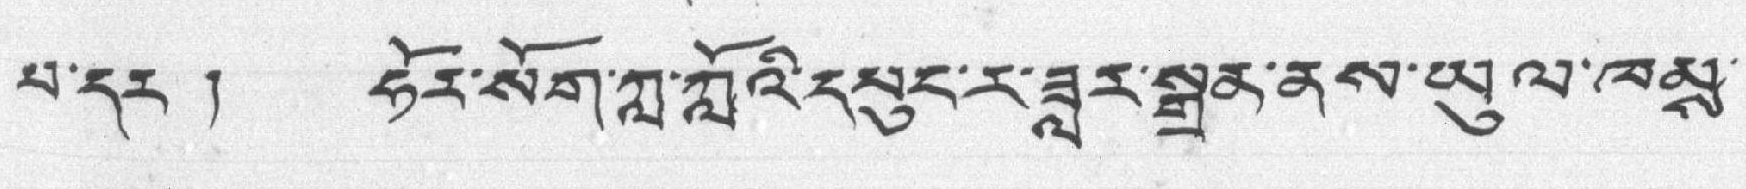པ་དར ། ཧོར་སོག་ཀླ་ཀློའི་དཔུང་ར་ཟླར་སྒྲན་ནས་ཡུལ་ལམས་
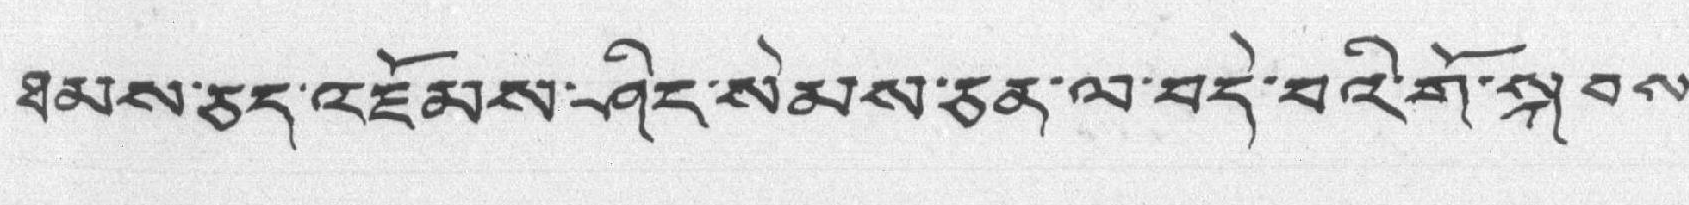ཐམས་ཅད་འཇོམས་ཤིང་སེམས་ཅན་ལ་བདེ་བའི་གོ་སྐབས་
